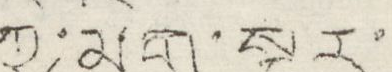ཀྱི་མིག་སྔར་
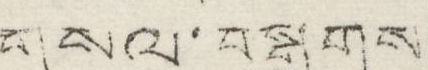གསལ་བསྒྲགས
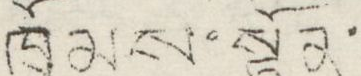ཁྲོམས་སྟོན་
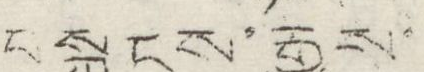བསྐྱངས་རྒྱུས་
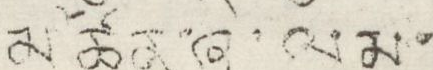མཚན་ཞི་ལམ་
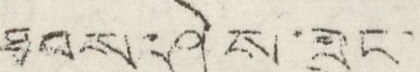ཐབས་ཤེས་ཟུང་
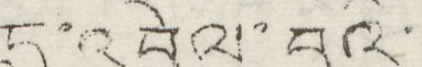དུ་འབྲེལ་བའི་
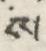ས་
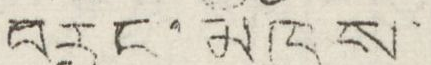བརླིང་མཁས་
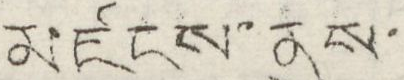མཛངས་ནུས་
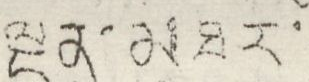ལྡན་མཐར་
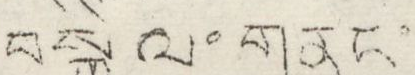བསྐྱེལ་གནང་
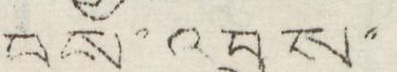བས་འབྲས་
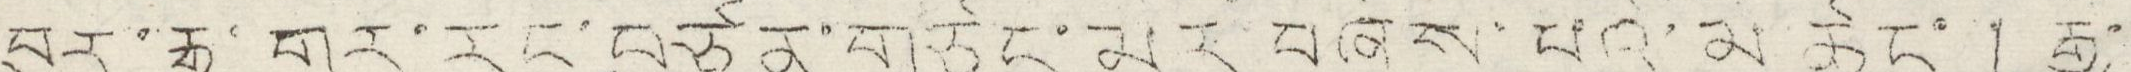བུར་རྒྱ་གར་རང་བཙན་མར་བཞེས་པའི་མི་ཚང་། རྒྱ་
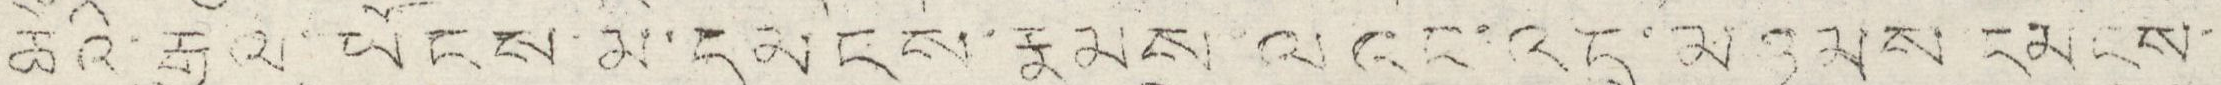ཆའི་རྒྱལ་ཡོངས་མི་དམངས་རྣམས་ལའང་འདྲ་མཉམས དམངས་
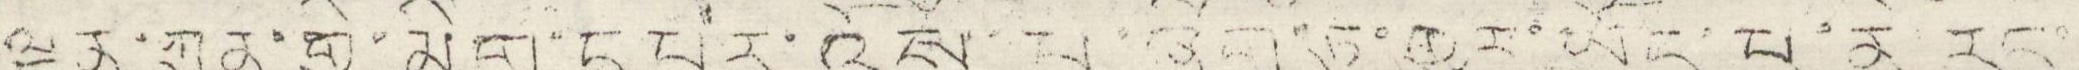ལྡན་ཀུན་གྱི་མིག་དཔེར་འོས་པ་ཞིག་ཏུ་གྱུར་ཡོད་པ་ནི་རང་
